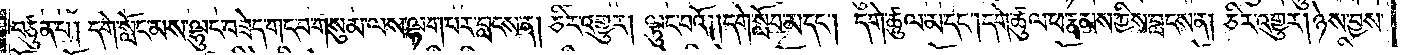བཙུན་པ། དགེ་སློང་མས་ལྷུང་བཟེད་གང་བ་གསུམ་ལས་ལྷག་པར་བླངས་ན། ཅིར་འགྱུར། ལྟུང་བའོ། །དགེ་སློབ་མ་དང༌། དགེ་ཚུལ་མ་དང༌། དགེ་ཚུལ་ཕ་རྣམས་ཀྱིས་བླངས་ན། ཅིར་འགྱུར། ཉེས་བྱས་
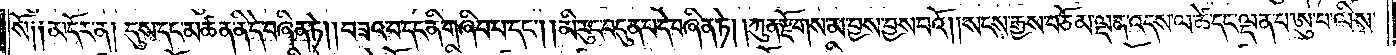སོ༑ ༑མདོར་ན། དུས་དང་མཚན་ནི་དེ་བཞིན་ཏེ། །བཟའ་བ་དང་ནི་གཞིབ་པ་དང༌། །མི་རུང་བདུན་པ་དེ་བཞིན་ཏེ། །ཀུན་རྫོགས་མ་བྱས་བྱས་པའོ། །སངས་རྒྱས་བཅོམ་ལྡན་འདས་ལ་ཚེ་དང་ལྡན་པ་ཨུ་པ་ལིས་
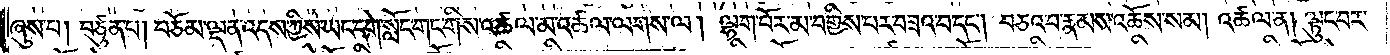ཞུས་པ། བཙུན་པ། བཅོམ་ལྡན་འདས་ཀྱིས་ཡང་དགེ་སློང་གང་གིས་འཚལ་མ་འཚལ་ལགས་ལ། ལྷག་པོར་མ་བགྱིས་པར་བཟའ་བ་དང༌། བཅའ་བ་རྣམས་འཆོས་སམ། འཚལ་ན། ལྟུང་བར་
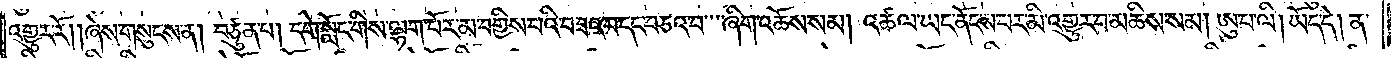འགྱུར་རོ། །ཞེས་གསུངས་ན། བཙུན་པ། དགེ་སློང་གིས་ལྷག་པོར་མ་བགྱིས་པའི་བཟའ་བ་དང་བཅའ་བ་ཞིག་འཆོས་སམ། འཚལ་ཡང་ནོངས་པར་མི་འགྱུར་བ་མཆིས་སམ། ཨུ་པ་ལི། ཡོད་དེ། ན་
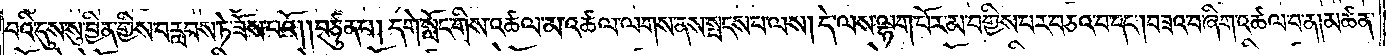བའི་དུས་སུ་བྱིན་གྱིས་བརླབས་ཏེ་ཟོས་པའོ། །བཙུན་པ། དགེ་སློང་གིས་འཚལ་མ་འཚལ་ལགས་ནས་སྤངས་པ་ལས། དེ་ལས་ལྷག་པོར་མ་བགྱིས་པར་བཅའ་བ་དང༌། བཟའ་བ་ཞིག་འཚལ་བ་ན། མཚན་
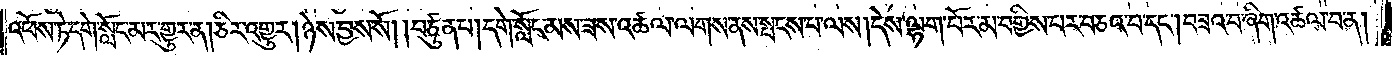འཕོས་ཏེ་དགེ་སློང་མར་གྱུར་ན། ཅིར་འགྱུར། ཉེས་བྱས་སོ། །བཙུན་པ། དགེ་སློང་མས་ཟས་འཚལ་ལགས་ནས་སྤངས་པ་ལས། དེས་ལྷག་པོར་མ་བགྱིས་པར་བཅའ་བ་དང༌། བཟའ་བ་ཞིག་འཚལ་བ་ན།
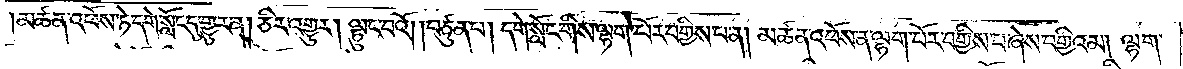མཚན་འཕོས་ཏེ་དགེ་སློང་དུ་གྱུར་ན། ཅིར་འགྱུར། ལྟུང་བའོ། །བཙུན་པ། དགེ་སློང་གིས་ལྷག་པོར་བགྱིས་པ་ན། མཚན་འཕོས་ན་ལྷག་པོར་བགྱིས་པ་ཞེས་བགྱིའམ། ལྷག་
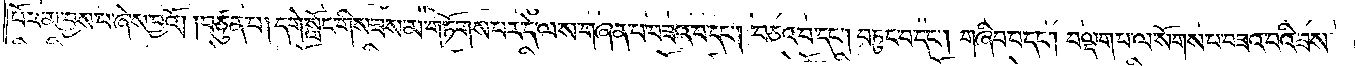པོར་མ་བྱས་པ་ཞེས་བྱའོ། །བཙུན་པ། དགེ་སློང་གིས་ཟས་མ་གཏོགས་པར་དེ་ལས་གཞན་པ་བཟའ་བ་དང༌། བཅའ་བ་དང༌། བཏུང་བ་དང༌། གཞིབ་པ་དང༌། བལྡག་པ་ལ་སོགས་པ་བཟའ་བའི་ཟས་
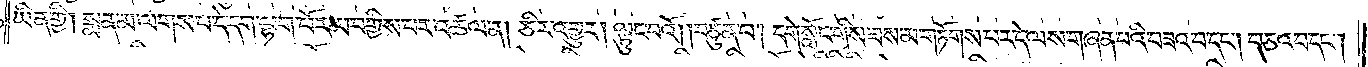ཡིན་གྱི། སྨན་མ་ལགས་པ་དེ་དག་ལྷག་པོར་མ་བགྱིས་པར་འཚལ་ན། ཅིར་འགྱུར། ལྟུང་བའོ། །བཙུན་པ། དགེ་སློང་གིས་ཟས་མ་གཏོགས་པར་དེ་ལས་གཞན་པའི་བཟའ་བ་དང༌། བཅའ་བ་དང༌།
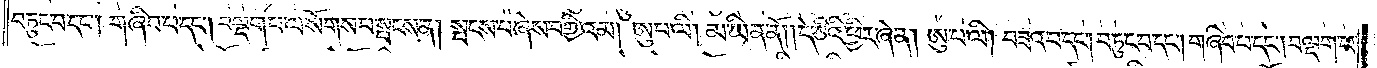བཏུང་བ་དང༌། གཞིབ་པ་དང༌། བལྡག་པ་ལ་སོགས་པ་སྤངས་ན། སྤངས་པ་ཞེས་བགྱིའམ། ཨུ་པ་ལི། མ་ཡིན་ནོ། །དེ་ཅིའི་ཕྱིར་ཞེ་ན། ཨུ་པ་ལི། བཟའ་བ་དང༌། བཏུང་བ་དང༌། གཞིབ་པ་དང༌། བལྡག་པ་
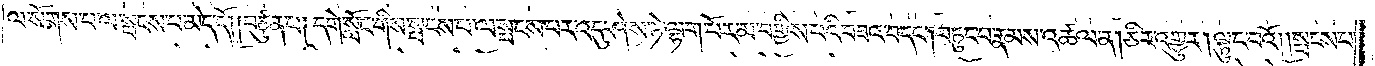ལ་སོགས་པ་ལ་སྤངས་པ་མེད་དོ། །བཙུན་པ། དགེ་སློང་གིས་སྤངས་པ་ལ་སྤངས་པར་འདུ་ཤེས་ཏེ་ལྷག་པོར་མ་བགྱིས་པའི་བཟའ་བ་དང༌། བཏུང་བ་རྣམས་འཚལ་ན། ཅིར་འགྱུར། ལྟུང་བའོ། །སྤངས་པ་
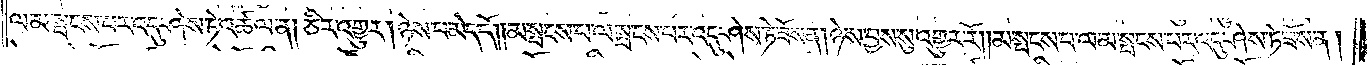ལམ་སྤངས་པར་འདུ་ཤེས་ཏེ་འཚལ་ན། ཅིར་འགྱུར། ཉེས་པ་མེད་དོ། །མ་སྤངས་པ་ལ་སྤངས་པར་འདུ་ཤེས་ཏེ་ཟོས་ན། ཉེས་བྱས་སུ་འགྱུར་རོ། །མ་སྤངས་པ་ལ་མ་སྤངས་པར་འདུ་ཤེས་ཏེ་ཟོས་ན།
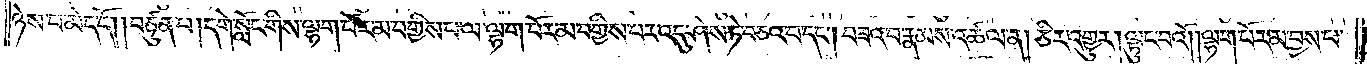ཉེས་པ་མེད་དོ། །བཙུན་པ། དགེ་སློང་གིས་ལྷག་པོར་མ་བགྱིས་པ་ལ་ལྷག་པོར་མ་བགྱིས་པར་འདུ་ཤེས་ཏེ་བཅའ་བ་དང༌། བཟའ་བ་རྣམས་འཚལ་ན། ཅིར་འགྱུར། ལྟུང་བའོ། །ལྷག་པོར་མ་བྱས་པ་
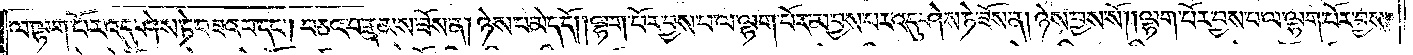ལ་ལྷག་པོར་འདུ་ཤེས་ཏེ་བཟའ་བ་དང༌། བཅའ་བ་རྣམས་ཟོས་ན། ཉེས་པ་མེད་དོ། །ལྷག་པོར་བྱས་པ་ལ་ལྷག་པོར་མ་བྱས་པར་འདུ་ཤེས་ཏེ་ཟོས་ན། ཉེས་བྱས་སོ། །ལྷག་པོར་བྱས་པ་ལ་ལྷག་པོར་བྱས་
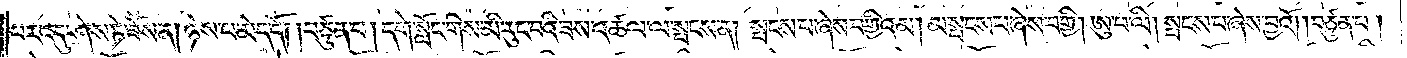པར་འདུ་ཤེས་ཏེ་ཟོས་ན། ཉེས་པ་མེད་དོ། །བཙུན་པ། དགེ་སློང་གིས་མི་རུང་བའི་ཟས་འཚལ་ལ་སྤངས་ན། སྤངས་པ་ཞེས་བགྱིའམ། མ་སྤངས་པ་ཞེས་བགྱི། ཨུ་པ་ལི། སྤངས་པ་ཞེས་བྱའོ། །བཙུན་པ།
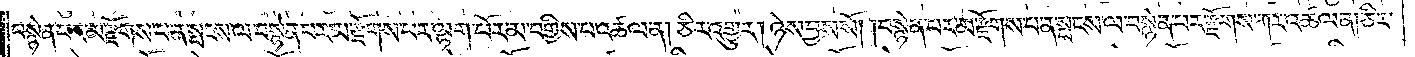བསྙེན་པར་མ་རྫོགས་པ་ན་སྤངས་ལ་བསྙེན་པར་མ་རྫོགས་པར་ལྷག་པོར་མ་བགྱིས་པ་འཚལ་ན། ཅིར་འགྱུར། ཉེས་བྱས་སོ། །བསྙེན་པར་མ་རྫོགས་པ་ན་སྤངས་ལ་བསྙེན་པར་རྫོགས་ཀར་འཚལ་ན། ཅིར་
